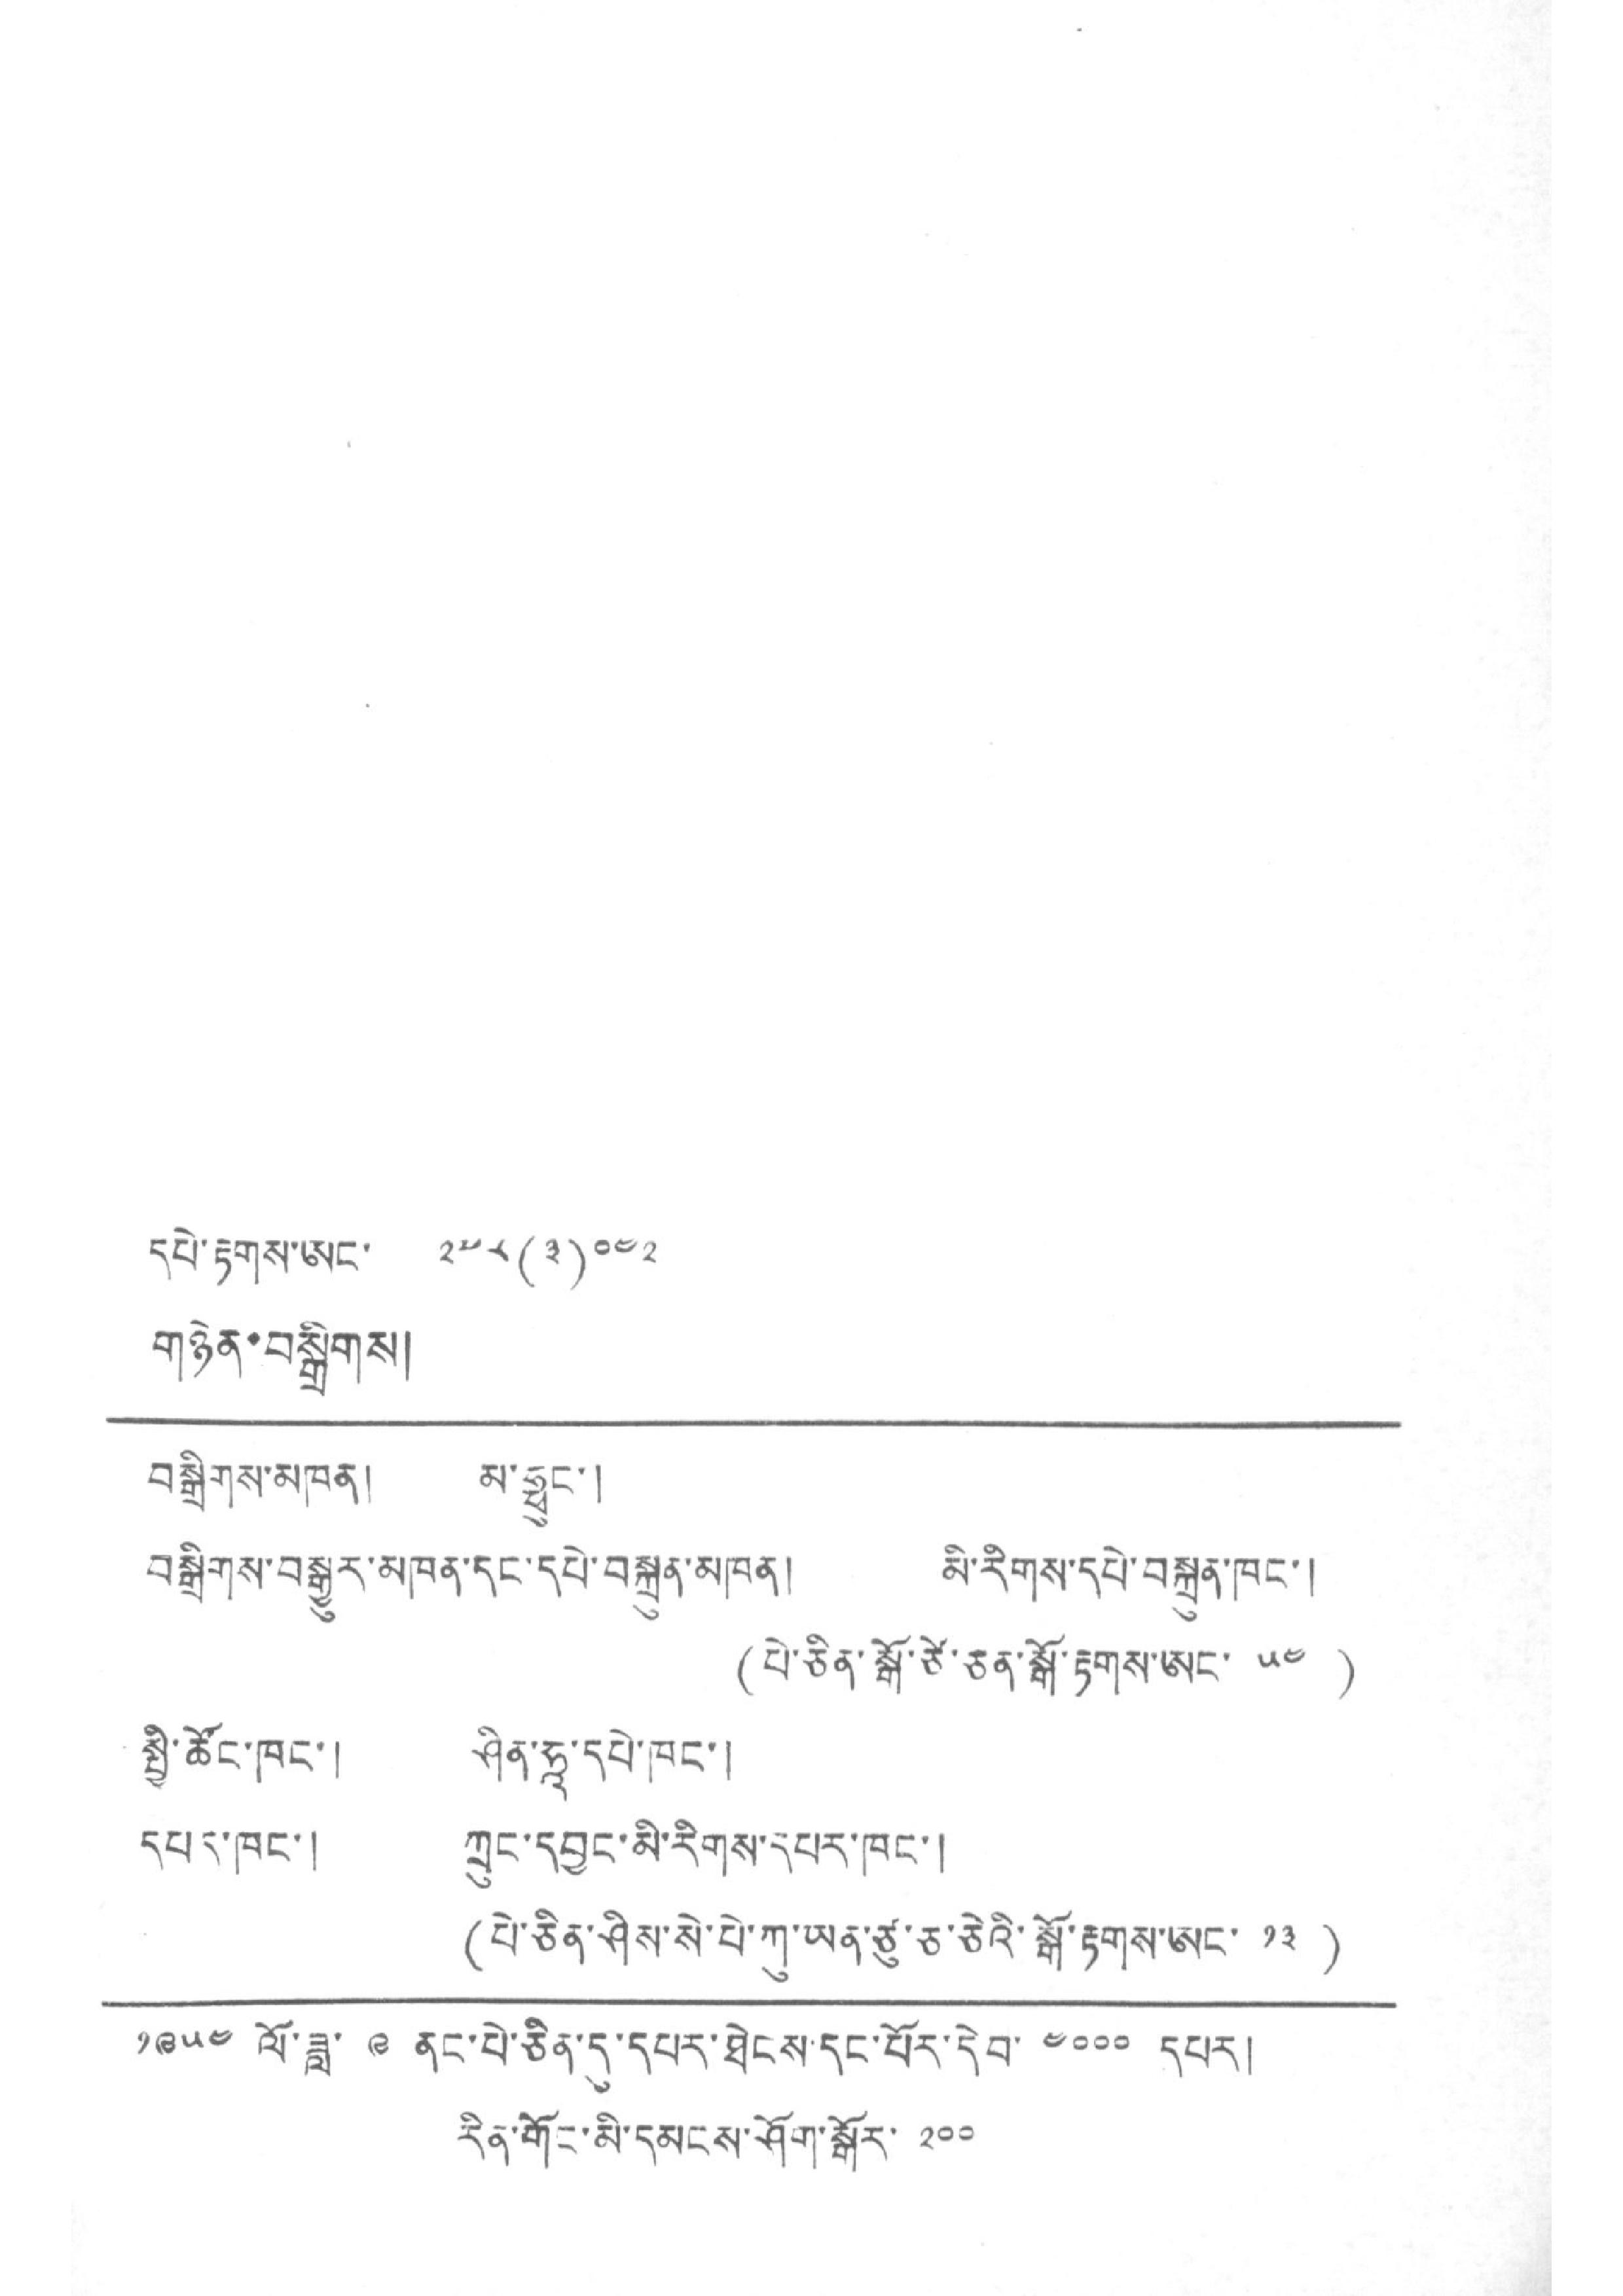དཔེ་རྟགས་ཨང་ ༢༧༨(༣)༠༤༢
གཉེན་བསྒྲིགས།
བསྒྲིགས་མཁན། མ་ཧྥུང་།
བསྒྲིགས་བསྒྱུར་མཁན་དང་དཔེ་བསྐྲུན་མཁན། མི་རིགས་དཔེ་བསྐྲུན་ཁང་།
(པེ་ཅིན་སྒོ་ཙེ་ཅན་སྒོ་རྟགས་ཨང་ ༥༤ )
སྤྱི་ཚོང་ཁང་། ཤིན་ཧཱ་དཔེ་ཁང་།
དཔར་ཁང་། ཀྲུང་དབྱང་མི་རིགས་དཔར་ཁང་།
(པེ་ཅིན་ཤིས་སེ་པེ་ཀུ་ཡན་ཙུ་ཅ་ཅེའི་སྒོ་རྟགས་ཨང་ ༡༣ )
༡༩༥༤ ལོ་ཟླ་ ༩ ནང་པེ་ཅིན་དུ་དཔར་ཐེངས་དང་པོར་དེབ་ ༤༠༠༠ དཔར།
རིན་གོར་མི་དམངས་ཤོག་སྒོར་ ༢༠༠
